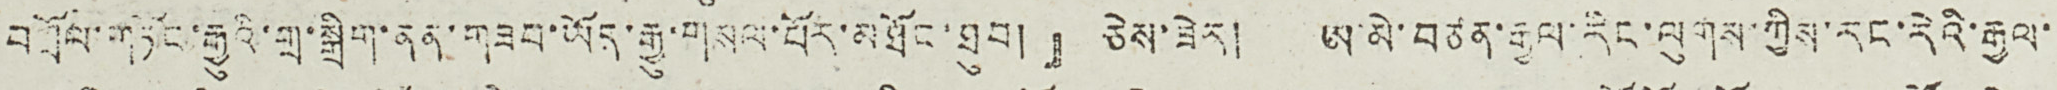བཀྲོལ་གཏོང་རྒྱུའི་གྲ་སྒྲིག་ནན་གཟབ་ཡོད་རྒྱུ་གསལ་པོར་མཐོང་ཐུབ།』ཅེས་ཟེར། ཨ་མེ་བཙན་རྒྱལ་རིང་ལུགས་ཀྱིས་རང་རེའི་རྒྱལ་
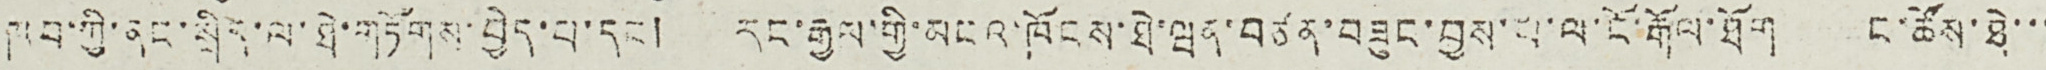ཁབ་ཀྱི་ནང་སྲིད་ལ་ཐེ་གཏོགས་བྱེད་པ་དང ། རང་རྒྱལ་གྱི་མངའ་ཁོངས་ཐེ་ཝན་བཙན་བཟུང་བྱས་པ་ལ་ངོ་རྒོལ་ཐོག ང་ཚོས་ཐེ་་་
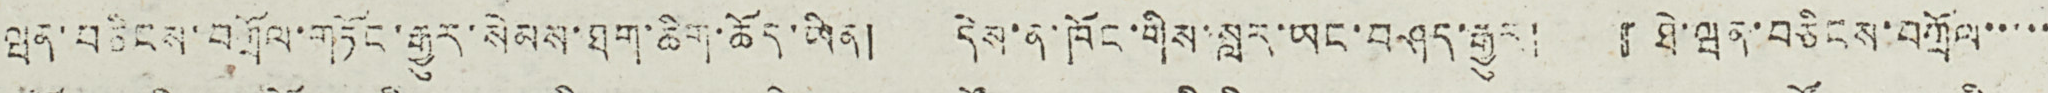ཝན་བཅིངས་བཀྲོལ་གཏོང་རྒྱུར་སེམས་ཐག་ཆིག་ཡོད་ཡིན། དེས་ན་ཁོང་གིས་སླར་ཡང་བཤད་རྒྱུར། 『ཐེ་ཝན་བཅིང་བཀྲོལ་་་་་
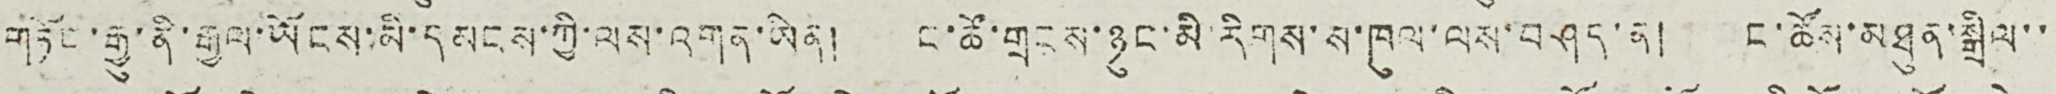གཏོང་རྒྱུ་ནི་རྒྱལ་ཡོངས་མི་དམངས་ཀྱི་ལས་འགན་ཡིན། ང་ཚོ་གྲངས་ཉུང་མི་རིགས་ས་ཁུལ་ལས་བཤད་ན། ང་ཚོས་མཐུན་སྒྲིལ་་
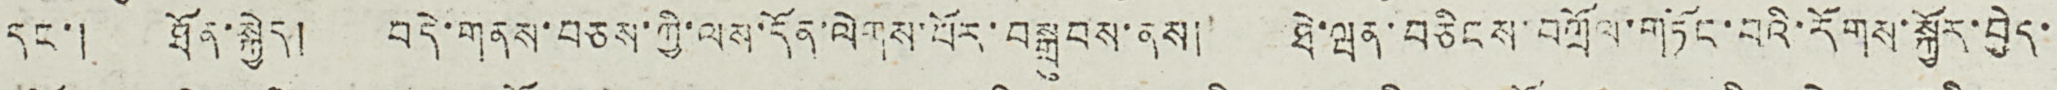དང་། ཐོན་སྐྱེད། བདེ་གནས་བཅས་ཀྱི་ལས་དོན་ལེགས་པོར་བསྒྲུབས་ནས། ཐེ་ཝན་བཅིངས་བགྲོལ་གཏོང་བའི་རོགས་སྐྱོར་བྱེད་
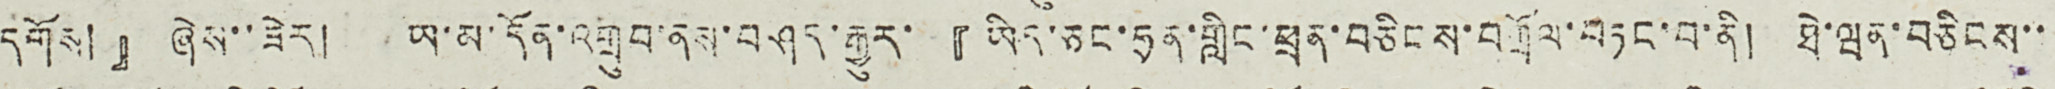དགོས།』ཞེས་་ཟེར། ཡ་མ་དོན་འགྲུབ་ནས་བཤད་རྒྱུར་『ཡིད་ཅང་ཧྲན་གླིང་ཕྲན་བཅིངས་བཀྲོལ་བཏང་བ་ནི། ཐེ་ཝན་བཅིངས་་
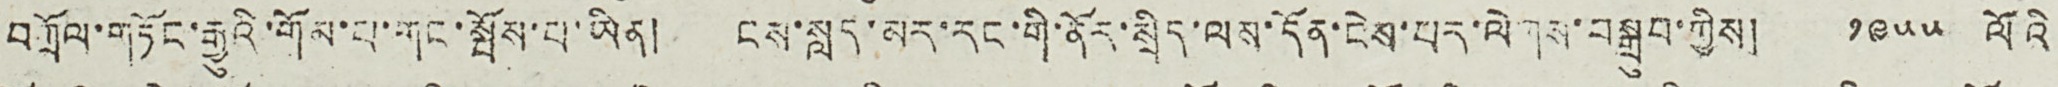བཀྲོལ་གཏོང་རྒྱུའི་གོམ་པ་གང་སྤོས་པ་ཡིན། ངས་སླད་མར་རང་གི་ནོར་སྲིད་ལས་དོན་ངེས་པར་ལེགས་བསྒྲུབ་ཀྱིས། ༡༩༥༥ ལོའི
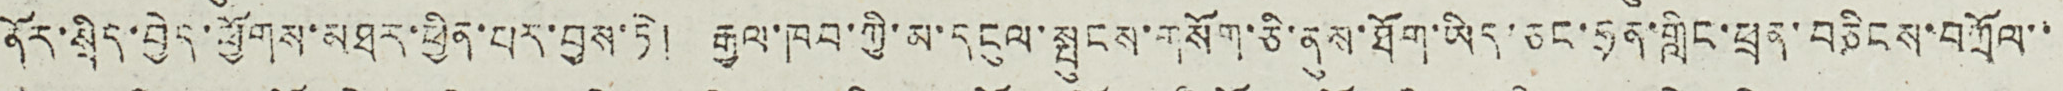ནོར་སྲིད་བྱེད་ཕྱོགས་མཐར་ཕྱིན་པར་བྱས་ཏེ། རྒྱལ་ཁབ་ཀྱི་མ་དངུལ་སྤུངས་གསོག་ཅི་ནུས་ཐོག་ཡིད་ཅང་ཧྲན་གླིང་ཕྲན་བཅིངས་བཀྲོལ་་
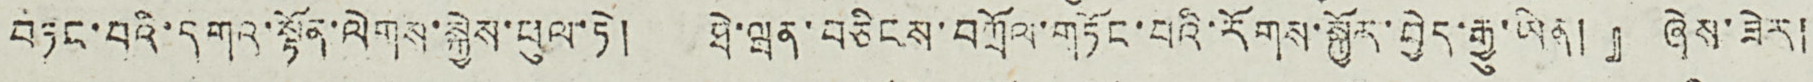བཏང་པའི་དགའ་སྟོན་ལེགས་སྐྱེས་ཕུལ་ཏེ། ཐེ་ཝན་བཅིངས་བཀྲོལ་གཏོང་བའི་རོགས་སྐྱོར་བྱེད་རྒྱུ་ཡིན།』ཞེས་ཟེར།
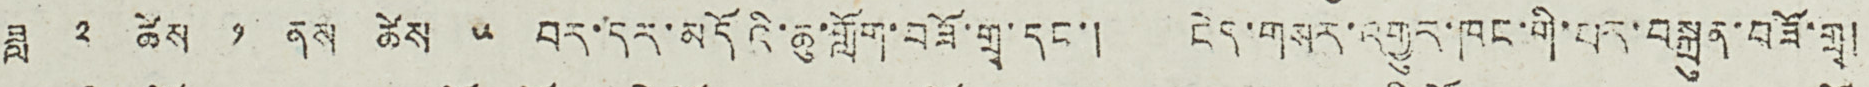ཟླ ༢ ཚེས ༡ ནས ཚེས ༥ བར་དར་མདོའི་ཆུ་གློག་བཟོ་གྲྭ་དང་། ངེད་གསར་འགྱུར་ཁང་གི་པར་བསྐྲུན་བཟོ་གྲྭ།
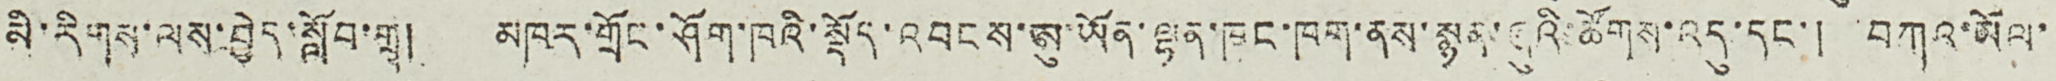མི་རིགས་ལས་བྱེད་སློབ་གྲྭ། མཁར་གྲོང་ཤོག་ཁའི་སྡོད་འབངས་ཨུ་ཡོན་ལྷན་ཁང་ཁག་ནས་སྙན་ཞུའི་ཚོགས་འདུ་དང་། བཀའ་མོལ་
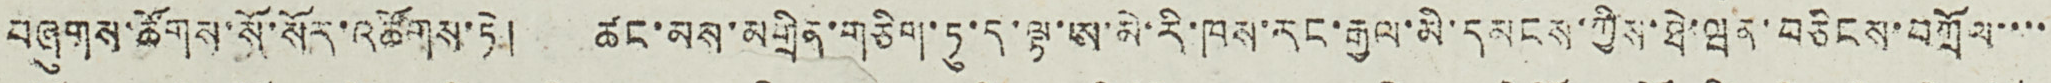བཞུགས་ཚོགས་སོ་སོར་འཚོགས་ཏེ། ཚང་མས་མགྲིན་གཅིག་ཏུ་ད་ལྟ་ཨ་མེ་རི་ཁས་རང་རྒྱལ་མི་དམངས་ཀྱིས་ཐེ་ཝན་བཅིངས་བཀྲོལ་་་་
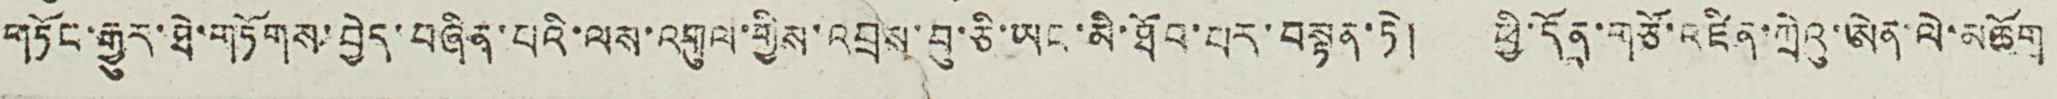གཏོང་རྒྱུར་ཐེ་གཏོགས་བྱེད་བཞིན་པའི་ལས་འགུལ་གྱིས་འབྲས་བུ་ཅི་ཡང་མི་ཐོབ་པར་བསྟན་ཏེ། ཕྱི་དོན་གཙོ་འཛིན་ཀྲེའུ་ཨེན་ལེ་མཆོག
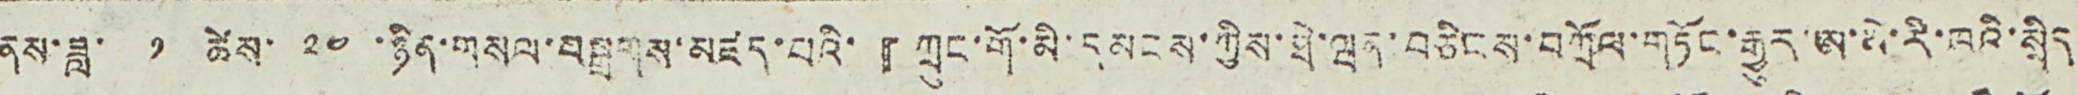ནས་ཟླ་ ༡ ཚེས་ ༢༤ ་ཉིན་གསལ་བསྒྲགས་མཛད་པའི་『ཀྲུང་གོ་མི་དམངས་ཀྱིས་ཐེ་ཝན་བཅིངས་བཀྲོལ་གཏོང་རྒྱུར་ཨ་མེ་རི་ཁའི་སྲིད
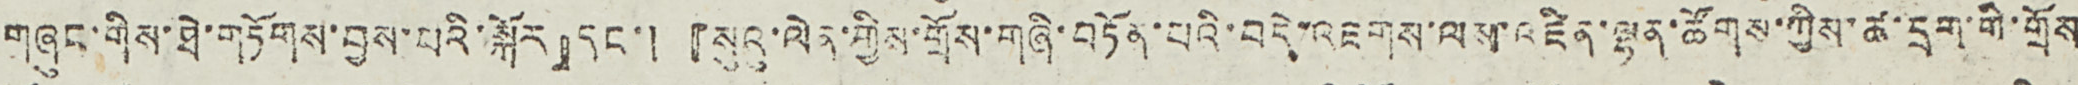གཞུང་གིས་ཐེ་གཏོགས་བྱས་པའི་སྐོར』དང་། 『སུའུ་ལེན་གྱིས་གྲོས་གཞི་བཏོན་པའི་བདེ་འཇགས་ལས་འཛིན་ལྷན་ཚོགས་ཀྱིས་ཚ་དྲག་གི་གྲོས
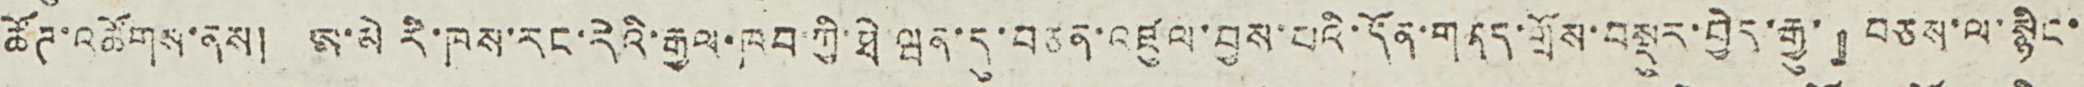ཚོཊ་འཚོགས་ནས། ཨ་མེ རི་ཁས་རང་རེའི་རྒྱལ་ཁབ་ཀྱི་ཐེ ཝན་དུ་བཅན་འཛུལ་བྱས་པའི་དོན་གནད་གྲོས་བསྡུར་བྱེད་རྒྱུ་』བཅས་ལ་སྙིང་
